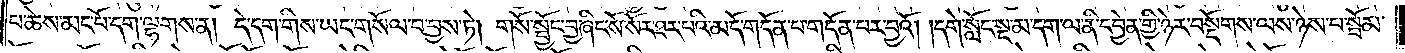པ་ཆེས་མང་པོ་དག་ལྷགས་ན། དེ་དག་གིས་ཡང་གསོལ་བ་བྱས་ཏེ། གསོ་སྦྱོང་བྱ་ཞིང་སོ་སོར་ཐར་པའི་མདོ་གདོན་པ་གདོན་པར་བྱའོ། །དགེ་སློང་སྔ་མ་དག་ལ་ནི་དབྱེན་གྱི་ཉེར་བསྡོགས་ལས་ཉེས་པ་སྦོམ་
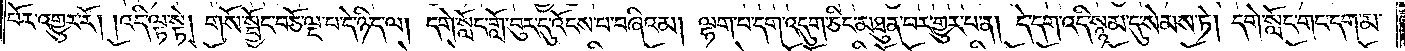པོར་འགྱུར་རོ། །འདི་ལྟ་སྟེ། གསོ་སྦྱོང་བཅོ་ལྔ་པ་དེ་ཉིད་ལ། དགེ་སློང་གློ་བུར་དུ་འོངས་པ་བཞིའམ། ལྷག་པ་དག་འདུག་ཅིང་མཐུན་པར་གྱུར་པ་ན། དེ་དག་འདི་སྙམ་དུ་སེམས་ཏེ། དགེ་སློང་གང་དག་མ་
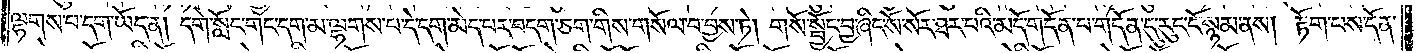ལྷགས་པ་དག་ཡོད་ན། དགེ་སློང་གང་དག་མ་ལྷགས་པ་དེ་དག་མེད་པར་བདག་ཅག་གིས་གསོལ་བ་བྱས་ཏེ། གསོ་སྦྱོང་བྱ་ཞིང་སོ་སོར་ཐར་པའི་མདོ་གདོན་པ་གདོན་དུ་རུང་ངོ་སྙམ་ནས། རྟོག་པས་དོན་
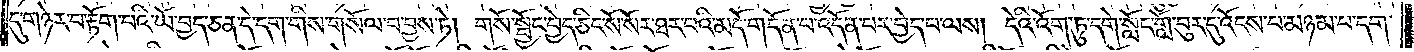དུ་གཉེར་བ་རྟོག་པའི་ཡོ་བྱད་ཅན་དེ་དག་གིས་གསོལ་བ་བྱས་ཏེ། གསོ་སྦྱོང་བྱེད་ཅིང་སོ་སོར་ཐར་པའི་མདོ་གདོན་པ་འདོན་པར་བྱེད་པ་ལས། དེའི་འོག་ཏུ་དགེ་སློང་གློ་བུར་དུ་འོངས་པ་མཉམ་པ་དག་
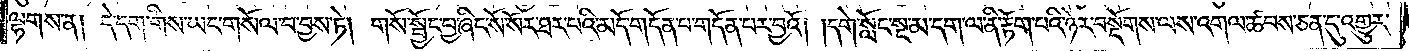ལྷགས་ན། དེ་དག་གིས་ཡང་གསོལ་བ་བྱས་ཏེ། གསོ་སྦྱོང་བྱ་ཞིང་སོ་སོར་ཐར་པའི་མདོ་གདོན་བ་གདོན་པར་བྱའོ། །དགེ་སློང་སྔ་མ་དག་ལ་ནི་རྟོག་པའི་ཉེར་བསྡོགས་ལས་འགལ་ཚབས་ཅན་དུ་འགྱུར་
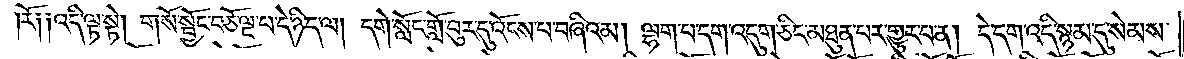རོ༏ ༏ འདི་ལྟ་སྟེ། གསོ་སྦྱོང་བཅོ་ལྔ་པ་དེ་ཉིད་ལ། དགེ་སློང་གློ་བུར་དུ་འོངས་པ་བཞིའམ། ལྷག་པ་དག་འདུག་ཅིང་མཐུན་པར་གྱུར་པ་ན། དེ་དག་འདི་སྙམ་དུ་སེམས་
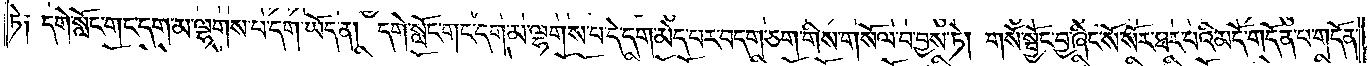ཏེ༑ དགེ་སློང་གང་དག་མ་ལྷགས་པ་དག་ཡོད་ན། དགེ་སློང་གང་དག་མ་ལྷགས་པ་དེ་དག་མེད་པར་བདག་ཅག་གིས་གསོལ་བ་བྱས་ཏེ། གསོ་སྦྱོང་བྱ་ཞིང་སོ་སོར་ཐར་པའི་མདོ་གདོན་པ་གདོན་
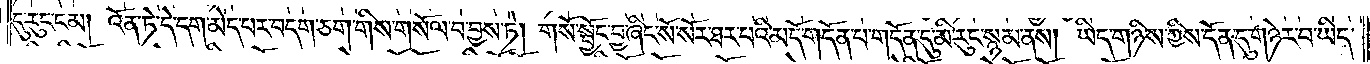དུ་རུང་ངམ། འོན་ཏེ་དེ་དག་མེད་པར་བདག་ཅག་གིས་གསོལ་བ་བྱས་ཏེ། གསོ་སྦྱོང་བྱ་ཞིང་སོ་སོར་ཐར་པའི་མདོ་གདོན་པ་གདོན་དུ་མི་རུང་སྙམ་ནས། ཡིད་གཉིས་ཀྱིས་དོན་དུ་གཉེར་བ་ཡིད་
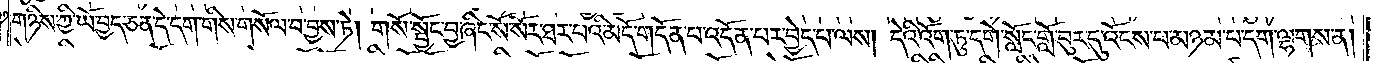གཉིས་ཀྱི་ཡོ་བྱད་ཅན་དེ་དག་གིས་གསོལ་བ་བྱས་ཏེ། གསོ་སྦྱོང་བྱ་ཞིང་སོ་སོར་ཐར་པའི་མདོ་གདོན་པ་འདོན་པར་བྱེད་པ་ལས། དེའི་འོག་ཏུ་དགེ་སློང་གློ་བུར་དུ་འོངས་པ་མཉམ་པ་དག་ལྷགས་ན།
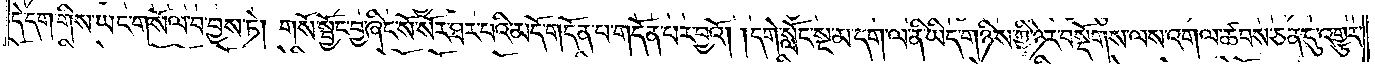དེ་དག་གིས་ཡང་གསོལ་བ་བྱས་ཏེ། གསོ་སྦྱོང་བྱ་ཞིང་སོ་སོར་ཐར་པའི་མདོ་གདོན་པ་གདོན་པར་བྱའོ། །དགེ་སློང་སྔ་མ་དག་ལ་ནི་ཡིད་གཉིས་ཀྱི་ཉེར་བསྡོགས་ལས་འགལ་ཚབས་ཅན་དུ་འགྱུར་
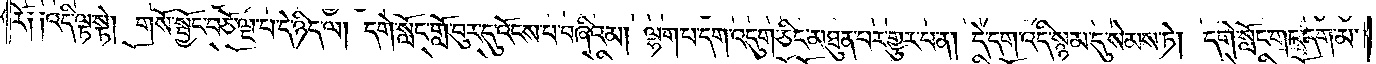རོ ༑ ༑ འདི་ལྟ་སྟེ། གསོ་སྦྱོང་བཅོ་ལྔ་པ་དེ་ཉིད་ལ། དགེ་སློང་གློ་བུར་དུ་འོངས་པ་བཞིའམ། ལྷག་པ་དག་འདུག་ཅིང་མཐུན་པར་གྱུར་པ་ན། དེ་དག་འདི་སྙམ་དུ་སེམས་ཏེ། དགེ་སློང་གང་དག་མ་
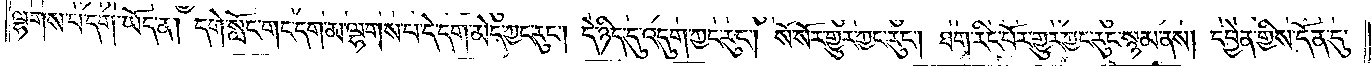ལྷགས་པ་དག་ཡོད་ན། དགེ་སློང་གང་དག་མ་ལྷགས་པ་དེ་དག་མེད་ཀྱང་རུང༌། དེ་ཉིད་དུ་འདུག་ཀྱང་རུང༌། སོ་སོར་གྱུར་ཀྱང་རུང༌། ཐག་རིང་པོར་གྱུར་ཀྱང་རུང་སྙམ་ནས། དབྱེན་གྱིས་དོན་དུ་
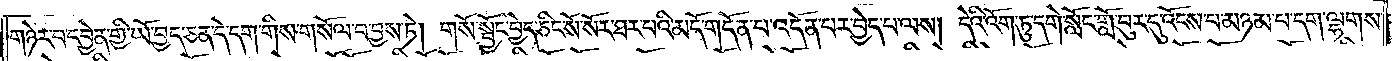གཉེར་བ་དབྱེན་གྱི་ཡོ་བྱད་ཅན་དེ་དག་གིས་གསོལ་བ་བྱས་ཏེ། གསོ་སྦྱོང་བྱེད་ཅིང་སོ་སོར་ཐར་པའི་མདོ་གདོན་པ་འདོན་པར་བྱེད་པ་ལས། དེའི་འོག་ཏུ་དགེ་སློང་གློ་བུར་དུ་འོངས་པ་མཉམ་པ་དག་ལྷགས་
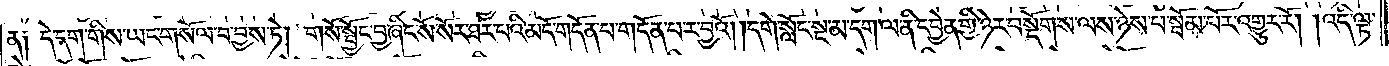ན༑ དེ་དག་གིས་ཡང་གསོལ་བ་བྱས་ཏེ། གསོ་སྦྱོང་བྱ་ཞིང་སོ་སོར་ཐར་པའི་མདོ་གདོན་པ་གདོན་པར་བྱའོ། །དགེ་སློང་སྔ་མ་དག་ལ་ནི་དབྱེན་གྱི་ཉེར་བསྡོགས་ལས་ཉེས་པ་སྦོམ་པོར་འགྱུར་རོ། །འདི་ལྟ་
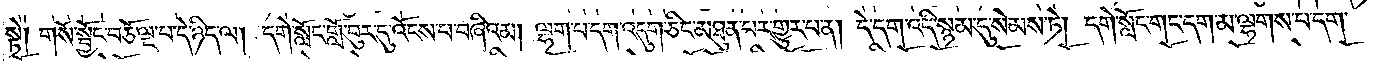སྟེ། གསོ་སྦྱོང་བཅོ་ལྔ་པ་དེ་ཉིད་ལ། དགེ་སློང་གློ་བུར་དུ་འོངས་པ་བཞིའམ། ལྷག་པ་དག་འདུག་ཅིང་མཐུན་པར་གྱུར་པ་ན། དེ་དག་འདི་སྙམ་དུ་སེམས་ཏེ། དགེ་སློང་གང་དག་མ་ལྷགས་པ་དག་
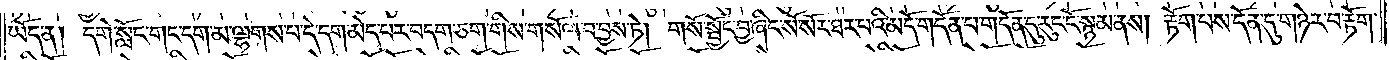ཡོད་ན། དགེ་སློང་གང་དག་མ་ལྷགས་པ་དེ་དག་མེད་པར་བདག་ཅག་གིས་གསོལ་བ་བྱས་ཏེ། གསོ་སྦྱོང་བྱ་ཞིང་སོ་སོར་ཐར་པའི་མདོ་གདོན་པ་གདོན་དུ་རུང་ངོ་སྙམ་ནས། རྟོག་པས་དོན་དུ་གཉེར་བ་རྟོག་
